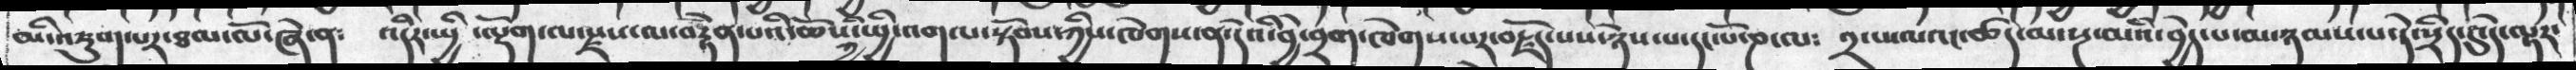མི་འཇུག་པར་ཐལ་ལོ་ཞེ་ན༴   འདིར་སྤྱི་ལྡོག་ལ་རྫས་ལ་བརྟེན་པའི་ཆོས་ཀྱི་ཕྱི་འགལ་སྟོབས་ཀྱིས་ཁེགས་ན་དེའི་བྱེ་བྲག་ཁེགས་པར་བརྗོད་པས་ཉེས་པ་དང་པོ་ཎ་ལ༴   ༢་པ་ལའང་ཚད་མ་སྔ་མའི་བྱེད་པ་མ་ཉམས་པ་དེ་སྲིད་དུ་དེ་ལྟར་
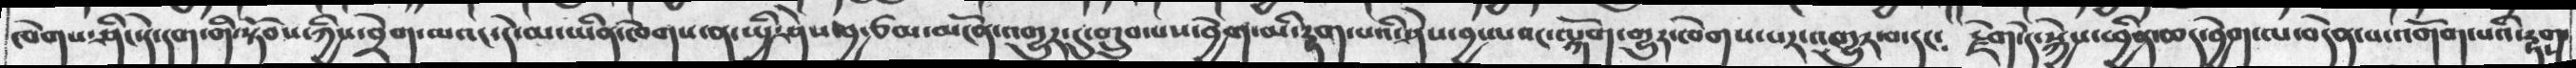ཁེགས་ཤིང་དེ་དག་གི་སྟོབས་ཀྱིས་བྲེག་ལའང་དེ་མ་ཡིན་ཁེགས་ན་སྤྱི་ཤེས་བྱ་ཙམ་མངོན་འགྱུར་དུ་གྲུབ་པས་བྱེག་མི་རྟག་པའི་ཤེས་བྱ་ལའང་ལྐོག་གྱུར་ཁེགས་པར་འགྱུར་བ་དང༴  རྗེག་དེ་སྐྱེས་ཕྱིན་ཆད་བྱེག་ལ་བདེན་པ་འགོག་པའི་རྟགས་
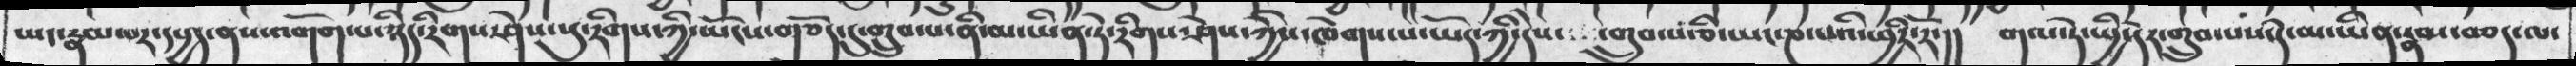ཡང་རྣམ་པར་དཔྱད་ནས་འགོག་པ་ཉིད་རིགས་ཤེས་སུ་རིགས་ཀྱི་ཡོངས་གཅོད་དུ་གྲུབ་པ་ནི་མ་ཡིན་ཏེ་རིགས་ཤེས་ཀྱིས་ཁེགས་པ་ཡོད་ཀྱི་དེས་གྲུབ་པ་ཅི་ཡང་ཎ་པའི་ཕྱིར་རོ་།།   གལ་ཏེ་སྤྱི་དེར་གྲུབ་པས་དེ་མ་ཡིན་རྣམ་བཅད་ལ་
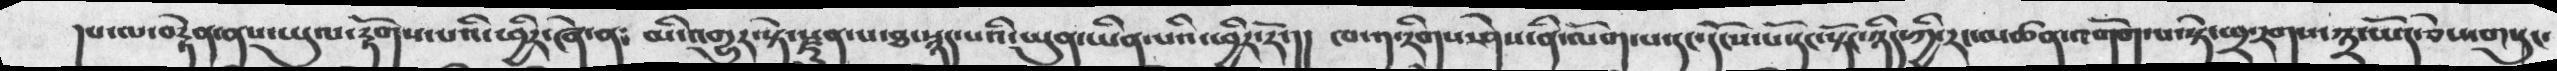།པ་ལ་བརྟེན་ནས་ཡུལ་རྟོགས་པའི་ཕྱིར་ཞེ་ན༴  མི་འགྱུར་སྟེ་རྫུན་པ་ཐ་སྙད་པའི་ཡུན་ཡིན་པའི་ཕྱིར་རོ་།།  ཁ་༡་རིགས་ཤེས་ནི་ལོག་པ་དང་དངོས་པོ་དང་སྟོང་ཉིད་ཀྱི་རང་མཚན་འགོག་པ་སྟེ་ཕྲ་རགས་༣་ཡོད་ཅེས་གསུང་
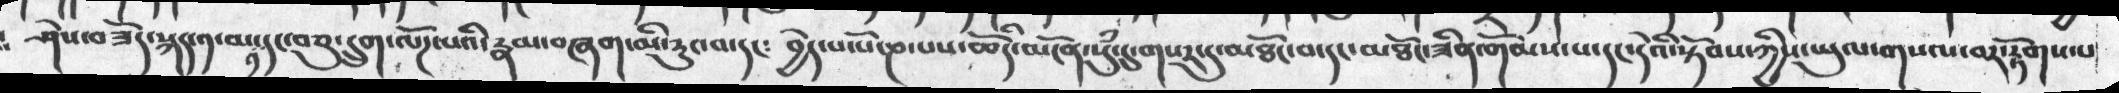ཤེས་བཟོད་སྐད་༡་མ་༡་དང་བཅུ་དྲུག་ལོཌ་པའི་རྣམ་བཞག་མི་རུང་བ་དང༴   བྱེད་པ་པོ་ཎ་པས་ཆོིད་མངོན་སུཾ་དུ་གསར་དུ་མཐོང་བ་དང་མཐོང་ཟིན་གོམས་པ་དང་དེའི་སྟོབས་ཀྱིས་ཡུལ་གསལ་བར་རྟོགས་པ
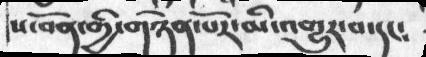ས་བོན་གྱི་གཉེན་པོར་མི་འགྱུར་བ་དང༴
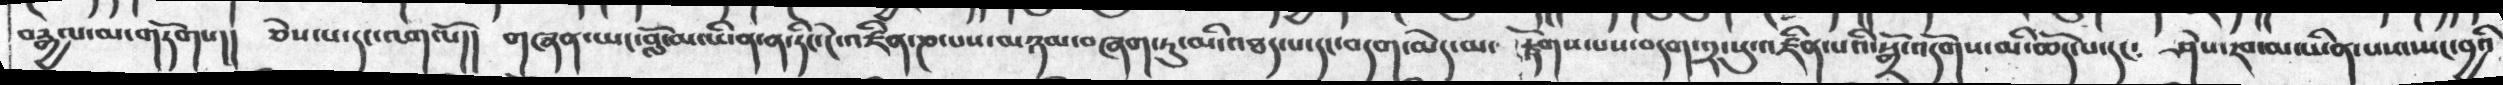བརྒྱལ་མ་གཏོགས།།  ཅེས་པ་དང་འགལོ།།   གཞན་ཡང་བློ་མ་ཡིན་ན་ཏིང་ངེ་འཛིན་ཎ་པས་མཉམ་བཞག་ཏུ་མི་འཐད་པ་དང་བདག་མེད་མ་རྟོགས་པས་བདག་༢་སུ་འཛིན་པའི་སྒྲོ་འདོགས་མི་ཆོད་པ་དང༴  ཤེས་རབ་མ་ཡིན་པས་སྤང་བྱའི
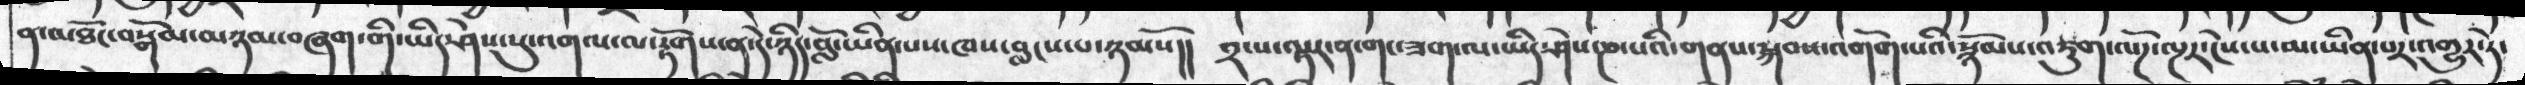ན་མཐོང་བསྒོམ་མཉམ་བཞག་གི་ཡིད་ཤེས་སུ་འགལ་ལ་རྟོགས་ན་དེ་ཉིད་བློ་ཡིན་པས་ཁས་བླངས་པ་ཉམསོ།།  ༢་པ་ལྟར་ན་གང་ཟག་ལ་ཡིད་ཤེས་ཎ་པའི་གནས་སྐབས་འགོག་པའི་སྙོམས་འཇུག་ལོཌ་ལྔར་ངེས་པ་མ་ཡིན་པར་འགྱུར་ཏེ་
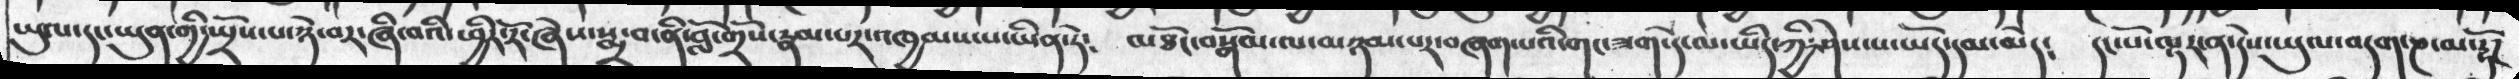ཡུལ་དང་ཡུན་གྱི་སྤྲོས་པ་ཉེ་བར་ཞི་བའི་ཕྱིར་རོ་ཞེས་སྨྲ་བ་ནི་བློ་གྲོས་རྣམ་པར་འཁྱམས་པ་ཡིན་དེ༴  མཐོང་བསྒོམ་ལ་མཉམ་པར་བཞག་པའི་གང་ཟག་དེ་ལ་ཡིད་ཀྱི་ཤེས་པ་ཡོད་དམ་མེད༴  དང་པོ་ལྟར་ན་དེས་ཡུལ་བདག་ཎ་ན་རྟོཌ
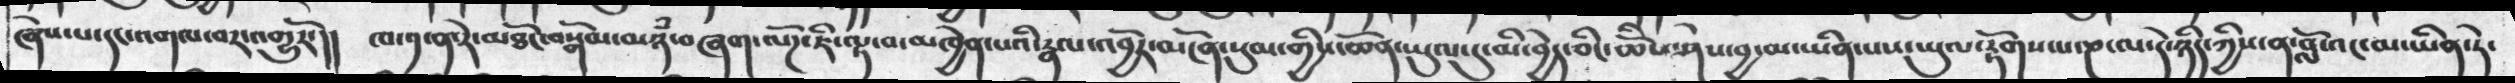ཞེས་པ་དང་འགལ་བར་འགྱུརོ་།།   ཁ་༡་ན་རེ་མཐོང་བསྒོམ་མཉཾ་བཞག་ལོཌ་ཇི་ལྟ་བ་མཁྱེན་པའི་རྣལ་འབྱོར་མངོན་སུམ་གྱིས་ཆོན་ཡུལ་དུ་མི་བྱེད་ཅིང་ཆོིས་ཤེས་བྱ་མ་ཡིན་པས་ཡུལ་རྟོགས་པ་ཎ་ལ་དེ་ཉིད་ཀྱིས་ན་བློ་འང་མ་ཡིན་དེ་
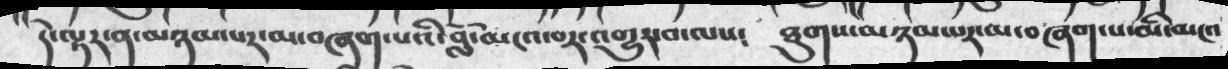དེ་ལྟར་ན་མཉམ་པར་མ་བཞག་པའི་བློ་མངའ་བར་འགྱུར་བ་ལས༴  ཐུགས་མཉམ་པར་མ་བཞག་པ་མི་མངའ
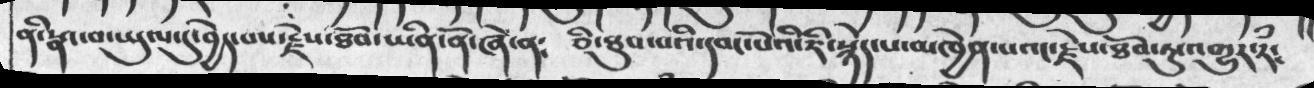ནི་སྣང་བ་ཡུལ་དུ་བྱེད་པས་རྗེས་ཐོབ་ཡིན་ནོ་ཞེ་ན༴   ཅི་ཐུབ་པའི་དབང་པོའི་ཇི་སྙེད་པ་མཁྱེན་པའང་རྗེས་ཐོབ་ཏུ་འགྱུར་རཾ༴
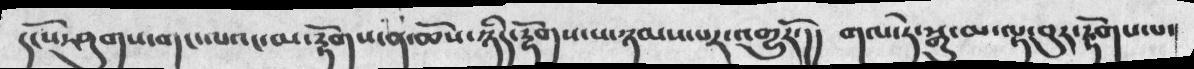དངོས་ཤུགས་གང་ལའང་མ་རྟོགས་ན་ཆོས་ཉིད་རྟོགས་པ་ཉམས་པར་འགྱུརོ་།།  གལ་དེ་སྒྱུ་མ་ལྟ་བུར་རྟོགས་པ་
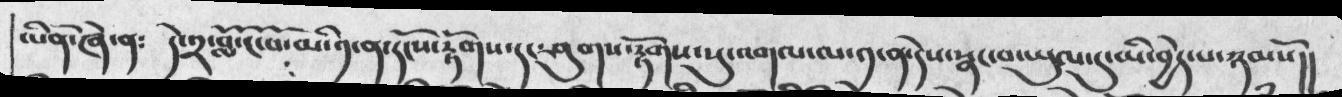་པིནོ་ཞེ་ན༴  དེ་༢་བློ་ངོ་བོ་མི་༡་ན་དངོས་རྟོགས་དང་ཤུགས་རྟོགས་སུ་འགལ་ལ་༡་ན་དེས་སྣང་བ་ཡུལ་དུ་མི་བྱེད་པ་ཉམསོ།།
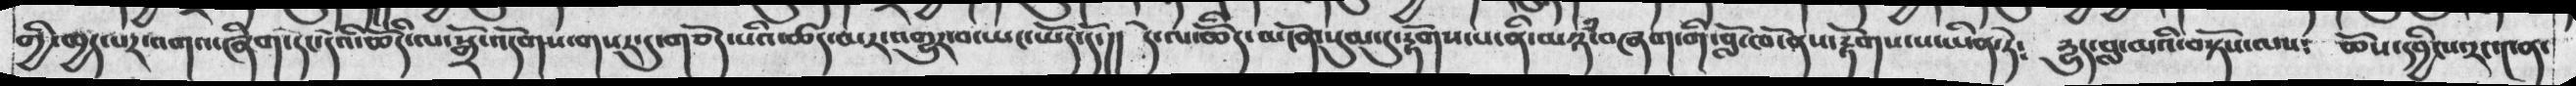གྱི་ཁྱད་པར་འགའ་ཞིག་དང་དེའི་ཆོིདེ་ལ་སྒྲོ་འདོགས་གསར་དུ་གཅོད་པའི་ཚད་མར་འགྱུར་བ་ཡང་ཡོད་དོ་།།  དེ་ལ་ཆོིད་མངོན་སུམ་དུ་རྟོགས་པ་ནི་མཉཾ་བཞག་གི་བློ་ཁོ་ནས་རྟོགས་པ་ཡིན་དེ༴  དྱུད་བླ་མའི་བསྟོས་ལས༴  ཆོས་དབྱིངས་རང་༤ན་
